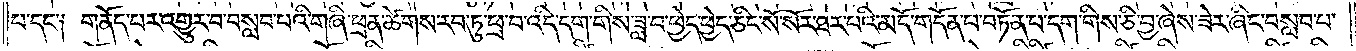པ་དང༌། གནོད་པར་འགྱུར་བ་བསླབ་པའི་གཞི་ཕྲན་ཚེགས་རབ་ཏུ་ཕྲ་བ་འདི་དག་གིས་ཟླ་བ་ཕྱེད་ཕྱེད་ཅིང་སོ་སོར་ཐར་པའི་མདོ་གདོན་པ་བཏོན་པ་དག་གིས་ཅི་བྱ་ཞེས་ཟེར་ཞིང་བསླབ་པ་
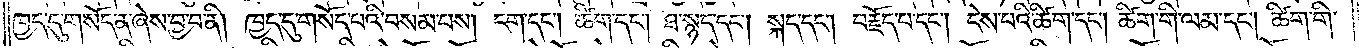ཁྱད་དུ་གསོད་ན་ཞེས་བྱ་བ་ནི། ཁྱད་དུ་གསོད་པའི་བསམ་པས། ངག་དང༌། ཚིག་དང༌། ཐ་སྙད་དང༌། སྐད་དང༌། བརྗོད་པ་དང༌། ངེས་པའི་ཚིག་དང༌། ཚིག་གི་ལམ་དང༌། ཚིག་གི་
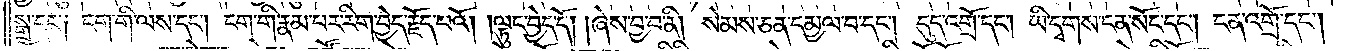སྒྲ་དང༌། ངག་གི་ལས་དང༌། ངག་གི་རྣམ་པར་རིག་བྱེད་རྗོད་པའོ། །ལྟུང་བྱེད་དོ། །ཞེས་བྱ་བ་ནི། སེམས་ཅན་དམྱལ་བ་དང༌། དུད་འགྲོ་དང༌། ཡི་དྭགས་ངན་སོང་དང༌། ངན་འགྲོ་དང༌།
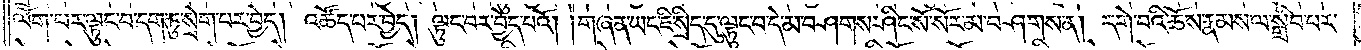ལོག་པར་ལྟུང་བ་དག་ཏུ་སྲེག་པར་བྱེད། འཚོད་པར་བྱེད། ལྟུང་བར་བྱེད་པའོ། །གཞན་ཡང་ཇི་སྲིད་དུ་ལྟུང་བ་དེ་མ་བཤགས་ཤིང་སོ་སོར་མ་བཤགས་ན། དགེ་བའི་ཆོས་རྣམས་ལ་སྒྲིབ་པར་
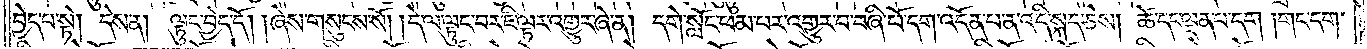བྱེད་པ་སྟེ། དེས་ན། ལྟུང་བྱེད་དོ། །ཞེས་གསུངས་སོ། །དེ་ལ་ལྟུང་བར་ཇི་ལྟར་འགྱུར་ཞེ་ན། དགེ་སློང་ཕམ་པར་འགྱུར་བ་བཞི་པོ་དག་འདོན་པ་ན་འདི་སྐད་ཅེས། ཚེ་དང་ལྡན་པ་དག །གང་དག་
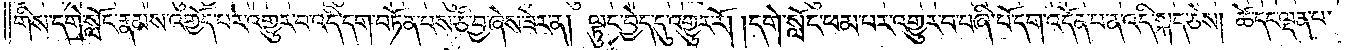གིས་དགེ་སློང་རྣམས་འགྱོད་པར་འགྱུར་བ་འདི་དག་བཏོན་པས་ཅི་བྱ་ཞེས་ཟེར་ན། ལྟུང་བྱེད་དུ་འགྱུར་རོ། །དགེ་སློང་ཕམ་པར་འགྱུར་བ་བཞི་པོ་དག་འདོན་པ་ན་འདི་སྐད་ཅེས། ཚེ་དང་ལྡན་པ་
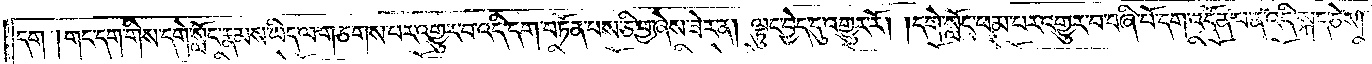དག །གང་དག་གིས་དགེ་སློང་རྣམས་ཡིད་ལ་གཅགས་པར་འགྱུར་བ་འདི་དག་བཏོན་པས་ཅི་བྱ་ཞེས་ཟེར་ན། ལྟུང་བྱེད་དུ་འགྱུར་རོ། །དགེ་སློང་ཕམ་པར་འགྱུར་བ་བཞི་པོ་དག་འདོན་པ་ན་འདི་སྐད་ཅེས།
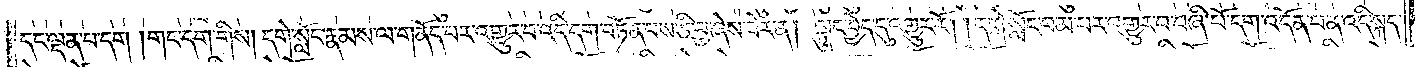དང་ལྡན་པ་དག །གང་དག་གིས། དགེ་སློང་རྣམས་ལ་གནོད་པར་འགྱུར་བ་འདི་དག་བཏོན་པས་ཅི་བྱ་ཞེས་ཟེར་ན། ལྟུང་བྱེད་དུ་འགྱུར་རོ། །དགེ་སློང་ཕམ་པར་འགྱུར་བ་བཞི་པོ་དག་འདོན་པ་ན་འདི་སྐད་
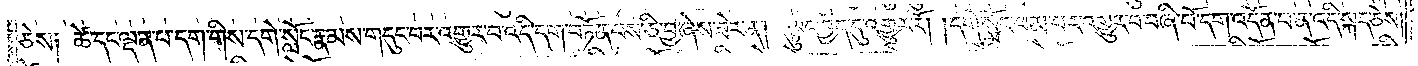ཅེས༑ ཚེ་དང་ལྡན་པ་དག་གིས་དགེ་སློང་རྣམས་གདུང་བར་འགྱུར་བ་འདི་དག་བཏོན་པས་ཅི་བྱ་ཞེས་ཟེར་ན། ལྟུང་བྱེད་དུ་འགྱུར་རོ། །དགེ་སློང་ཕམ་པར་འགྱུར་བ་བཞི་པོ་དག་འདོན་པ་ན་འདི་སྐད་ཅེས།
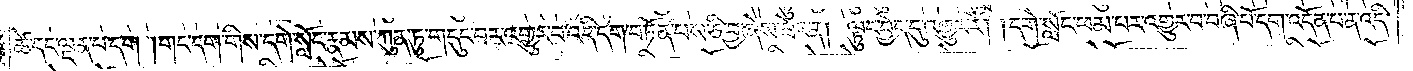ཚེ་དང་ལྡན་པ་དག །གང་དག་གིས་དགེ་སློང་རྣམས་ཀུན་ཏུ་གདུང་བར་འགྱུར་བ་འདི་དག་བཏོན་པས་ཅི་བྱ་ཞེས་ཟེར་ན། ལྟུང་བྱེད་དུ་འགྱུར་རོ། །དགེ་སློང་ཕམ་པར་འགྱུར་བ་བཞི་པོ་དག་འདོན་པ་ན་འདི་
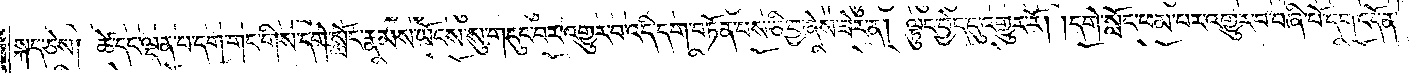སྐད་ཅེས། ཚེ་དང་ལྡན་པ་དག་གང་གིས་དགེ་སློང་རྣམས་ཡོངས་སུ་གདུང་བར་འགྱུར་བ་འདི་དག་བཏོན་པས་ཅི་བྱ་ཞེས་ཟེར་ན། ལྟུང་བྱེད་དུ་འགྱུར་རོ། །དགེ་སློང་ཕམ་པར་འགྱུར་བ་བཞི་པོ་དག་འདོན་
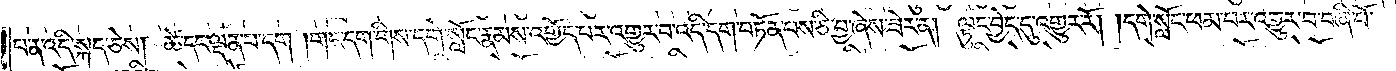པ་ན་འདི་སྐད་ཅེས། ཚེ་དང་ལྡན་པ་དག །གང་དག་གིས་དགེ་སློང་རྣམས་འགྱོད་པར་འགྱུར་བ་འདི་དག་བཏོན་པས་ཅི་བྱ་ཞེས་ཟེར་ན། ལྟུང་བྱེད་དུ་འགྱུར་རོ། །དགེ་སློང་ཕམ་པར་འགྱུར་བ་བཞི་པོ་
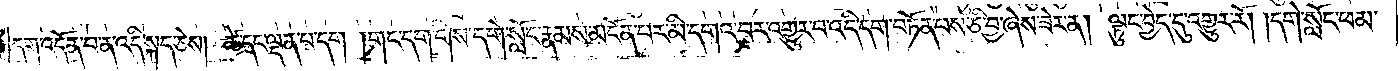དག་འདོན་པ་ན་འདི་སྐད་ཅེས། ཚེ་དང་ལྡན་པ་དག །གང་དག་གིས་དགེ་སློང་རྣམས་མངོན་པར་མི་དགའ་བར་འགྱུར་བ་འདི་དག་བཏོན་པས་ཅི་བྱ་ཞེས་ཟེར་ན། ལྟུང་བྱེད་དུ་འགྱུར་རོ། །དགེ་སློང་ཕམ་
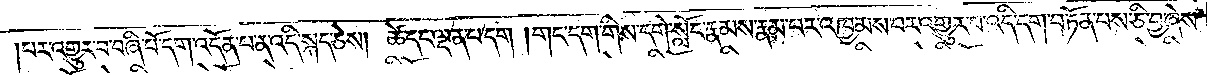པར་འགྱུར་བ་བཞི་པོ་དག་འདོན་པ་ན་འདི་སྐད་ཅེས། ཚེ་དང་ལྡན་པ་དག །གང་དག་གིས་དགེ་སློང་རྣམས་རྣམ་པར་འཁྱམས་པར་འགྱུར་བ་འདི་དག་བཏོན་པས་ཅི་བྱ་ཞེས་
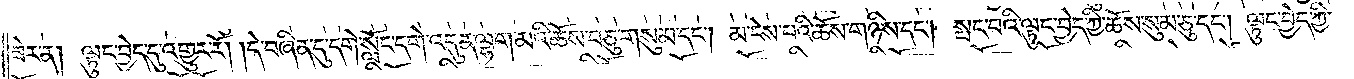ཟེར་ན། ལྟུང་བྱེད་དུ་འགྱུར་རོ། །དེ་བཞིན་དུ་དགེ་སློང་དགེ་འདུན་ལྷག་མའི་ཆོས་བཅུ་གསུམ་དང༌། མ་ངེས་པའི་ཆོས་གཉིས་དང༌། སྤང་བའི་ལྟུང་བྱེད་ཀྱི་ཆོས་སུམ་ཅུ་དང༌། ལྟུང་བྱེད་ཀྱི་
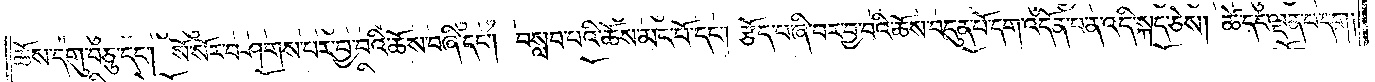ཆོས་དགུ་བཅུ་དང༌། སོ་སོར་བཤགས་པར་བྱ་བའི་ཆོས་བཞི་དང༌། བསླབ་པའི་ཆོས་མང་པོ་དང༌། རྩོད་པ་ཞི་བར་བྱ་བའི་ཆོས་བདུན་པོ་དག་འདོན་པ་ན་འདི་སྐད་ཅེས། ཚེ་དང་ལྡན་པ་དག།
